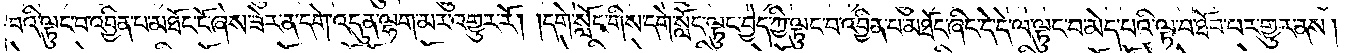བའི་ལྟུང་བ་འབྱིན་པ་མཐོང་ངོ་ཞེས་ཟེར་ན་དགེ་འདུན་ལྷག་མར་འགྱུར་རོ། །དགེ་སློང་གིས་དགེ་སློང་ལྟུང་བྱེད་ཀྱི་ལྟུང་བ་འབྱིན་པ་མཐོང་ཞིང་དེ་དེ་ལ་ལྟུང་བ་མེད་པའི་ལྟ་བ་ཐོབ་པར་གྱུར་ནས།
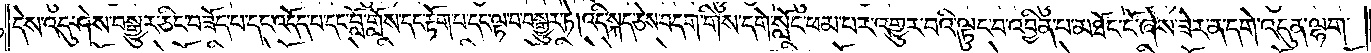དེས་འདུ་ཤེས་བསྒྱུར་ཅིང་བཟོད་པ་དང་འདོད་པ་དང་བློ་གྲོས་དང་རྟོག་པ་དང་ལྟ་བ་བསྒྱུར་ཏེ། འདི་སྐད་ཅེས་བདག་གིས་དགེ་སློང་ཕམ་པར་འགྱུར་བའི་ལྟུང་བ་འབྱིན་པ་མཐོང་ངོ་ཞེས་ཟེར་ན་དགེ་འདུན་ལྷག་
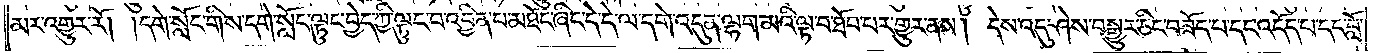མར་འགྱུར་རོ། །དགེ་སློང་གིས་དགེ་སློང་ལྟུང་བྱེད་ཀྱི་ལྟུང་བ་འབྱིན་པ་མཐོང་ཞིང་དེ་དེ་ལ་དགེ་འདུན་ལྷག་མའི་ལྟ་བ་ཐོབ་པར་གྱུར་ནས། དེས་འདུ་ཤེས་བསྒྱུར་ཅིང་བཟོད་པ་དང་འདོད་པ་དང་བློ་
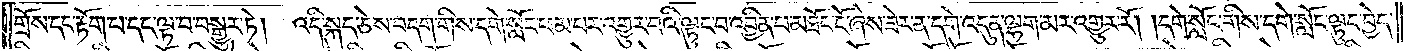གྲོས་དང་རྟོག་པ་དང་ལྟ་བ་བསྒྱུར་ཏེ།  འདི་སྐད་ཅེས་བདག་གིས་དགེ་སློང་ཕམ་པར་འགྱུར་བའི་ལྟུང་བ་འབྱིན་པ་མཐོང་ངོ་ཞེས་ཟེར་ན་དགེ་འདུན་ལྷག་མར་འགྱུར་རོ། །དགེ་སློང་གིས་དགེ་སློང་ལྟུང་བྱེད་
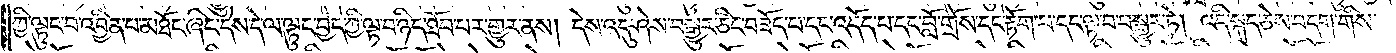ཀྱི་ལྟུང་བ་འབྱིན་པ་མཐོང་ཞིང་དེས་དེ་ལ་ལྟུང་བྱེད་ཀྱི་ལྟ་བ་ཉིད་ཐོབ་པར་གྱུར་ནས། དེས་འདུ་ཤེས་བསྒྱུར་ཅིང་བཟོད་པ་དང་འདོད་པ་དང་བློ་གྲོས་དང་རྟོག་པ་དང་ལྟ་བ་བསྒྱུར་ཏེ། འདི་སྐད་ཅེས་བདག་གིས་
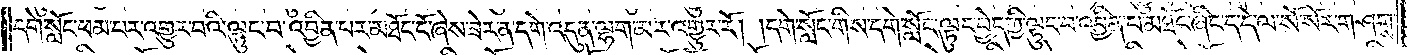དགེ་སློང་ཕམ་པར་འགྱུར་བའི་ལྟུང་བ་འབྱིན་པར་མཐོང་ངོ་ཞེས་ཟེར་ན་དགེ་འདུན་ལྷག་མར་འགྱུར་རོ། །དགེ་སློང་གིས་དགེ་སློང་ལྟུང་བྱེད་ཀྱི་ལྟུང་བ་འབྱིན་པ་མཐོང་ཞིང་ད་དེ་ལ་སོ་སོར་གཤགས་
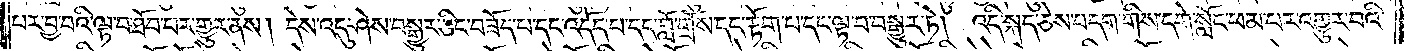པར་བྱ་བའི་ལྟ་བ་ཐོབ་པར་གྱུར་ནས། དེས་འདུ་ཤེས་བསྒྱུར་ཅིང་བཟོད་པ་དང་འདོད་པ་དང་བློ་གྲོས་དང་རྟོག་པ་དང་ལྟ་བ་བསྒྱུར་ཏེ། འདི་སྐད་ཅེས་བདག་གིས་དགེ་སློང་ཕམ་པར་འགྱུར་བའི་
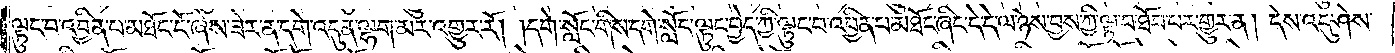ལྟུང་བ་འབྱིན་པ་མཐོང་ངོ་ཞེས་ཟེར་ན་དགེ་འདུན་ལྷག་མར་འགྱུར་རོ། །དགེ་སློང་གིས་དགེ་སློང་ལྟུང་བྱེད་ཀྱི་ལྟུང་བ་འབྱིན་པ་མཐོང་ཞིང་དེ་དེ་ལ་ཉེས་བྱས་ཀྱི་ལྟ་བ་ཐོབ་པར་གྱུར་ན། དེས་འདུ་ཤེས་
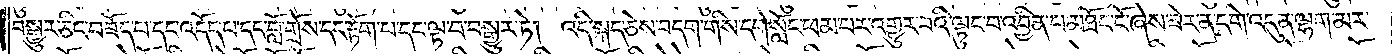བསྒྱུར་ཅིང་བཟོད་པ་དང་འདོད་པ་དང་བློ་གྲོས་དང་རྟོག་པ་དང་ལྟ་བ་བསྒྱུར་ཏེ། འདི་སྐད་ཅེས་བདག་གིས་དགེ་སློང་ཕམ་པར་འགྱུར་བའི་ལྟུང་བ་འབྱིན་པ་མཐོང་ངོ་ཞེས་ཟེར་ན་དགེ་འདུན་ལྷག་མར་
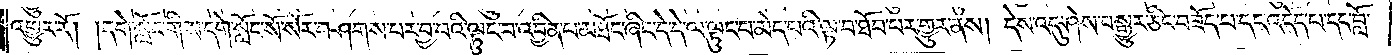འགྱུར་རོ། །དགེ་སློང་གིས་དགེ་སློང་སོ་སོར་བཤགས་པར་བྱ་བའི་ལྟུང་བ་འབྱིན་པ་མཐོང་ཞིང་དེ་དེ་ལ་ལྟུང་བ་མེད་པའི་ལྟ་བ་ཐོབ་པར་གྱུར་ནས། དེས་འདུ་ཤེས་བསྒྱུར་ཅིང་བཟོད་པ་དང་འདོད་པ་དང་བློ་
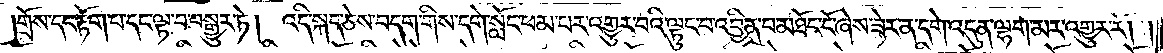གྲོས་དང་རྟོག་པ་དང་ལྟ་བ་བསྒྱུར་ཏེ། འདི་སྐད་ཅེས་བདག་གིས་དགེ་སློང་ཕམ་པར་འགྱུར་བའི་ལྟུང་བ་འབྱིན་པ་མཐོང་ངོ་ཞེས་ཟེར་ན་དགེ་འདུན་ལྷག་མར་འགྱུར་རོ། །
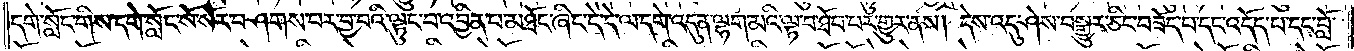དགེ་སློང་གིས་དགེ་སློང་སོ་སོར་བཤགས་པར་བྱ་བའི་ལྟུང་བ་འབྱིན་པ་མཐོང་ཞིང་དེ་དེ་ལ་དགེ་འདུན་ལྷག་མའི་ལྟ་བ་ཐོབ་པར་གྱུར་ནས། དེས་འདུ་ཤེས་བསྒྱུར་ཅིང་བཟོད་པ་དང་འདོད་པ་དང་བློ་
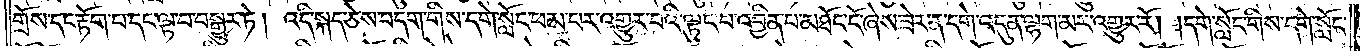གྲོས་དང་རྟོག་པ་དང་ལྟ་བ་བསྒྱུར་ཏེ། འདི་སྐད་ཅེས་བདག་གིས་དགེ་སློང་ཕམ་པར་འགྱུར་བའི་ལྟུང་བ་འབྱིན་པ་མཐོང་ངོ་ཞེས་ཟེར་ན་དགེ་འདུན་ལྷག་མར་འགྱུར་རོ། །དགེ་སློང་གིས་དགེ་སློང་
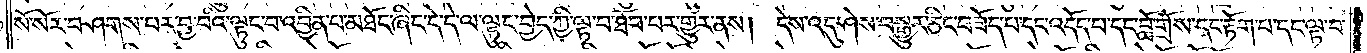སོ་སོར་བཤགས་པར་བྱ་བའི་ལྟུང་བ་འབྱིན་པ་མཐོང་ཞིང་དེ་དེ་ལ་ལྟུང་བྱེད་ཀྱི་ལྟ་བ་ཐོབ་པར་གྱུར་ནས། དེས་འདུ་ཤེས་བསྒྱུར་ཅིང་བཟོད་པ་དང་འདོད་པ་དང་བློ་གྲོས་དང་རྟོག་པ་དང་ལྟ་བ་
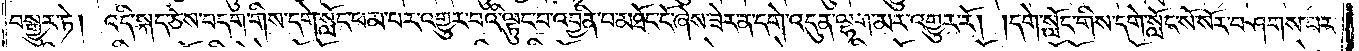བསྒྱུར་ཏེ། འདི་སྐད་ཅེས་བདག་གིས་དགེ་སློང་ཕམ་པར་འགྱུར་བའི་ལྟུང་བ་འབྱིན་པ་མཐོང་ངོ་ཞེས་ཟེར་ན་དགེ་འདུན་ལྷག་མར་འགྱུར་རོ། །དགེ་སློང་གིས་དགེ་སློང་སོ་སོར་བཤགས་པར་
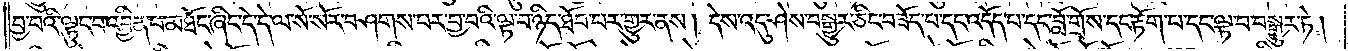བྱ་བའི་ལྟུང་བ་འབྱིན་པ་མཐོང་ཞིང་དེ་དེ་ལ་སོ་སོར་བཤགས་པར་བྱ་བའི་ལྟ་བ་ཉིད་ཐོབ་པར་གྱུར་ནས། དེས་འདུ་ཤེས་བསྒྱུར་ཅིང་བཟོད་པ་དང་འདོད་པ་དང་བློ་གྲོས་དང་རྟོག་པ་དང་ལྟ་བ་བསྒྱུར་ཏེ།
